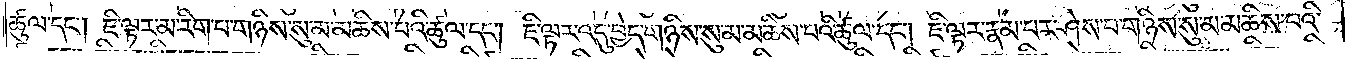ཚུལ་དང༌། ཇི་ལྟར་མ་རིག་པ་གཉིས་སུ་མ་མཆིས་པའི་ཚུལ་དང༌། ཇི་ལྟར་འདུ་བྱེད་གཉིས་སུ་མ་མཆིས་པའི་ཚུལ་དང༌། ཇི་ལྟར་རྣམ་པར་ཤེས་པ་གཉིས་སུ་མ་མཆིས་པའི་
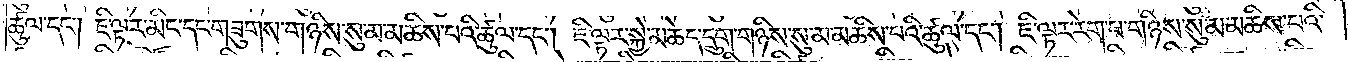ཚུལ་དང༌། ཇི་ལྟར་མིང་དང་གཟུགས་གཉིས་སུ་མ་མཆིས་པའི་ཚུལ་དང༌། ཇི་ལྟར་སྐྱེ་མཆེད་དྲུག་གཉིས་སུ་མ་མཆིས་པའི་ཚུལ་དང༌། ཇི་ལྟར་རེག་པ་གཉིས་སུ་མ་མཆིས་པའི་
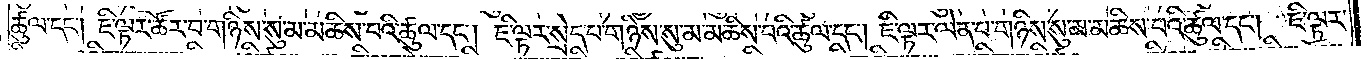ཚུལ་དང༌། ཇི་ལྟར་ཚོར་བ་གཉིས་སུ་མ་མཆིས་པའི་ཚུལ་དང༌། ཇི་ལྟར་སྲེད་པ་གཉིས་སུ་མ་མཆིས་པའི་ཚུལ་དང༌། ཇི་ལྟར་ལེན་པ་གཉིས་སུ་མ་མཆིས་པའི་ཚུལ་དང༌། ཇི་ལྟར་
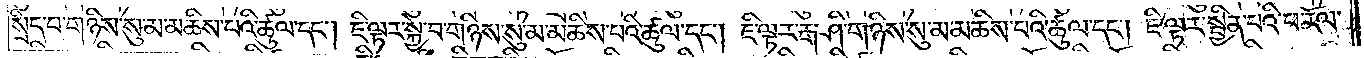སྲིད་པ་གཉིས་སུ་མ་མཆིས་པའི་ཚུལ་དང༌། ཇི་ལྟར་སྐྱེ་བ་གཉིས་སུ་མ་མཆིས་པའི་ཚུལ་དང༌། ཇི་ལྟར་རྒ་ཤི་གཉིས་སུ་མ་མཆིས་པའི་ཚུལ་དང༌། ཇི་ལྟར་སྦྱིན་པའི་ཕ་རོལ་
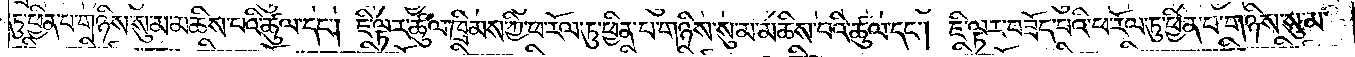ཏུ་ཕྱིན་པ་གཉིས་སུ་མ་མཆིས་པའི་ཚུལ་དང༌། ཇི་ལྟར་ཚུལ་ཁྲིམས་ཀྱི་ཕ་རོལ་ཏུ་ཕྱིན་པ་གཉིས་སུ་མ་མཆིས་པའི་ཚུལ་དང༌། ཇི་ལྟར་བཟོད་པའི་ཕ་རོལ་ཏུ་ཕྱིན་པ་གཉིས་སུ་མ་
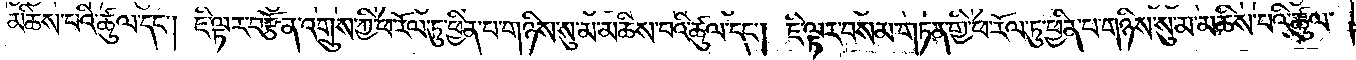མཆིས་པའི་ཚུལ་དང༌། ཇི་ལྟར་བརྩོན་འགྲུས་ཀྱི་ཕ་རོལ་ཏུ་ཕྱིན་པ་གཉིས་སུ་མ་མཆིས་པའི་ཚུལ་དང༌། ཇི་ལྟར་བསམ་གཏན་གྱི་ཕ་རོལ་ཏུ་ཕྱིན་པ་གཉིས་སུ་མ་མཆིས་པའི་ཚུལ་
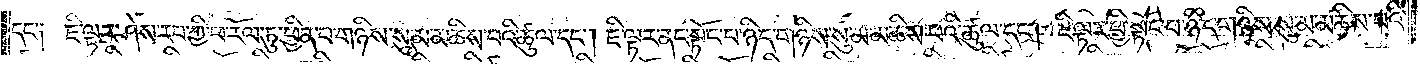དང༌། ཇི་ལྟར་ཤེས་རབ་ཀྱི་ཕ་རོལ་ཏུ་ཕྱིན་པ་གཉིས་སུ་མ་མཆིས་པའི་ཚུལ་དང༌། ཇི་ལྟར་ནང་སྟོང་པ་ཉིད་གཉིས་སུ་མ་མཆིས་པའི་ཚུལ་དང༌། ཇི་ལྟར་ཕྱི་སྟོང་པ་ཉིད་གཉིས་སུ་མ་མཆིས་པའི་
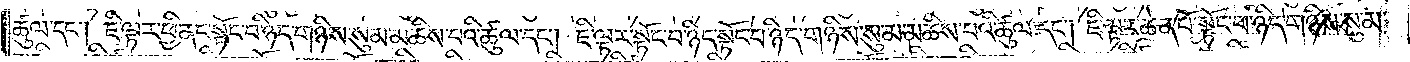ཚུལ་དང༌། ཇི་ལྟར་ཕྱི་ནང་སྟོང་པ་ཉིད་གཉིས་སུ་མ་མཆིས་པའི་ཚུལ་དང༌། ཇི་ལྟར་སྟོང་པ་ཉིད་སྟོང་བ་ཉིད་གཉིས་སུ་མ་མཆིས་པའི་ཚུལ་དང༌། ཇི་ལྟར་ཆེན་པོ་སྟོང་པ་ཉིད་གཉིས་སུ་མ་
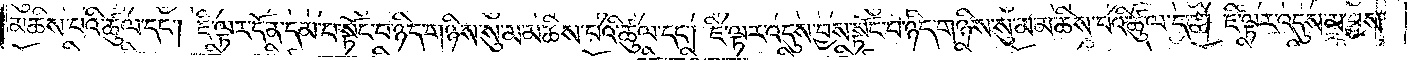མཆིས་པའི་ཚུལ་དང༌། ཇི་ལྟར་དོན་དམ་པ་སྟོང་པ་ཉིད་གཉིས་སུ་མ་མཆིས་པའི་ཚུལ་དང༌། ཇི་ལྟར་འདུས་བྱས་སྟོང་པ་ཉིད་གཉིས་སུ་མ་མཆིས་པའི་ཚུལ་དང༌། ཇི་ལྟར་འདུས་མ་བྱས་
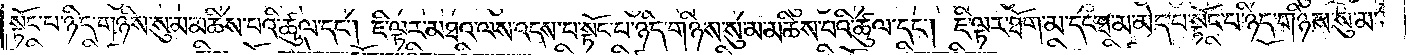སྟོང་པ་ཉིད་གཉིས་སུ་མ་མཆིས་པའི་ཚུལ་དང༌། ཇི་ལྟར་མཐའ་ལས་འདས་པ་སྟོང་པ་ཉིད་གཉིས་སུ་མ་མཆིས་པའི་ཚུལ་དང༌། ཇི་ལྟར་ཐོག་མ་དང་ཐ་མ་མེད་པ་སྟོང་པ་ཉིད་གཉིས་སུ་མ་
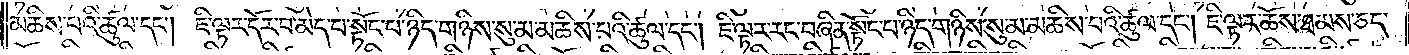མཆིས་པའི་ཚུལ་དང༌། ཇི་ལྟར་དོར་བ་མེད་པ་སྟོང་པ་ཉིད་གཉིས་སུ་མ་མཆིས་པའི་ཚུལ་དང༌། ཇི་ལྟར་རང་བཞིན་སྟོང་པ་ཉིད་གཉིས་སུ་མ་མཆིས་པའི་ཚུལ་དང༌། ཇི་ལྟར་ཆོས་ཐམས་ཅད་
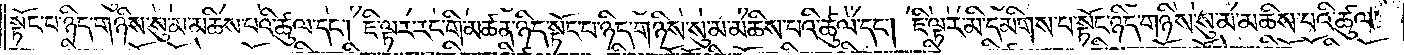སྟོང་པ་ཉིད་གཉིས་སུ་མ་མཆིས་པའི་ཚུལ་དང༌། ཇི་ལྟར་རང་གི་མཚན་ཉིད་སྟོང་པ་ཉིད་གཉིས་སུ་མ་མཆིས་པའི་ཚུལ་དང༌། ཇི་ལྟར་མི་དམིགས་པ་སྟོང་པ་ཉིད་གཉིས་སུ་མ་མཆིས་པའི་ཚུལ་
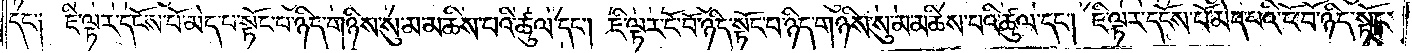དང༌། ཇི་ལྟར་དངོས་པོ་མེད་པ་སྟོང་པ་ཉིད་གཉིས་སུ་མ་མཆིས་པའི་ཚུལ་དང༌། ཇི་ལྟར་ངོ་བོ་ཉིད་སྟོང་པ་ཉིད་གཉིས་སུ་མ་མཆིས་པའི་ཚུལ་དང༌། ཇི་ལྟར་དངོས་པོ་མེད་པའི་ངོ་བོ་ཉིད་སྟོང་
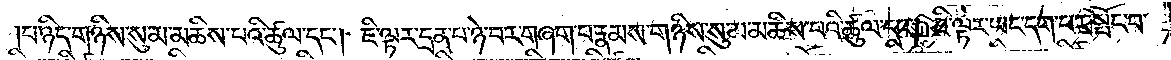པ་ཉིད་གཉིས་སུ་མ་མཆིས་པའི་ཚུལ་དང༌། ཇི་ལྟར་དྲན་པ་ཉེ་བར་གཞག་པ་རྣམས་གཉིས་སུ་མ་མཆིས་པའི་ཚུལ་དང༌། ཇི་ལྟར་ཡང་དག་པར་སྤོང་བ་
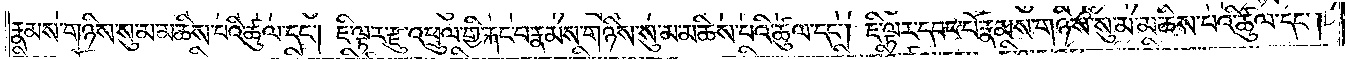རྣམས་གཉིས་སུ་མ་མཆིས་པའི་ཚུལ་དང༌། ཇི་ལྟར་རྫུ་འཕྲུལ་གྱི་རྐང་པ་རྣམས་གཉིས་སུ་མ་མཆིས་པའི་ཚུལ་དང༌། ཇི་ལྟར་དབང་པོ་རྣམས་གཉིས་སུ་མ་མཆིས་པའི་ཚུལ་དང༌།
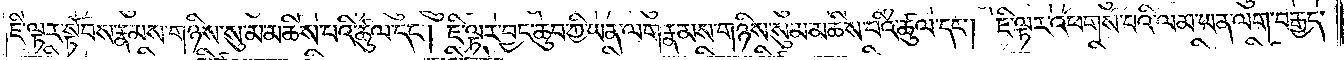ཇི་ལྟར་སྟོབས་རྣམས་གཉིས་སུ་མ་མཆིས་པའི་ཚུལ་དང༌། ཇི་ལྟར་བྱང་ཆུབ་ཀྱི་ཡན་ལག་རྣམས་གཉིས་སུ་མ་མཆིས་པའི་ཚུལ་དང༌། ཇི་ལྟར་འཕགས་པའི་ལམ་ཡན་ལག་བརྒྱད་
